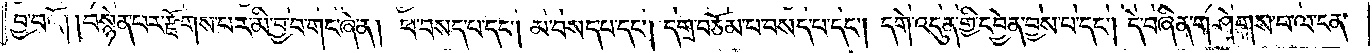བྱ་བའོ། །བསྙེན་པར་རྫོགས་པར་མི་བྱ་བ་གང་ཞེ་ན། ཕ་བསད་པ་དང༌། མ་བསད་པ་དང༌། དགྲ་བཅོམ་པ་བསད་པ་དང༌། དགེ་འདུན་གྱི་དབྱེན་བྱས་པ་དང༌། དེ་བཞིན་གཤེགས་པ་ལ་ངན་
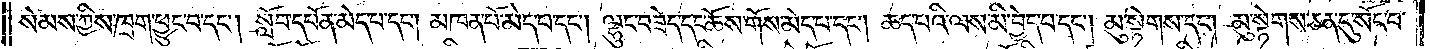སེམས་ཀྱིས་ཁྲག་ཕྱུང་བ་དང༌། སློབ་དཔོན་མེད་པ་དང༌། མཁན་པོ་མེད་པ་དང༌། ལྷུང་བཟེད་དང་ཆོས་གོས་མེད་པ་དང༌། ཆད་པའི་ལས་མི་བྱེད་པ་དང༌།   མུ་སྟེགས་དང༌། མུ་སྟེགས་ཅན་དུ་སོང་བ་
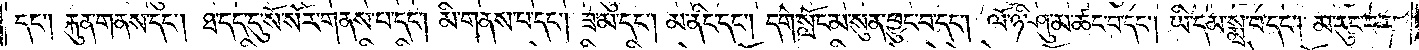དང༌། རྐུན་གནས་དང༌། ཐ་དད་དུ་སོ་སོར་གནས་པ་དང༌། མི་གནས་པ་དང༌། ཟ་མ་དང༌། མ་ནིང་དང༌། དགེ་སློང་མ་སུན་ཕྱུང་བ་དང༌། ལོ་ཉི་ཤུ་མ་ཚང་བ་དང༌། ཡི་དམ་སྨྲ་བ་དང༌། མ་རུང་བར་
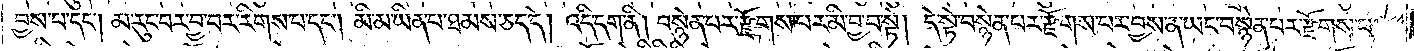བྱས་པ་དང༌། མ་རུང་བར་བྱ་བར་རིགས་པ་དང༌། མི་མ་ཡིན་པ་ཐམས་ཅད་དེ། འདི་དག་ནི། བསྙེན་པར་རྫོགས་པར་མི་བྱ་བ་སྟེ། དེ་སྟེ་བསྙེན་པར་རྫོགས་པར་བྱས་ན་ཡང་བསྙེན་པར་རྫོགས་པ་
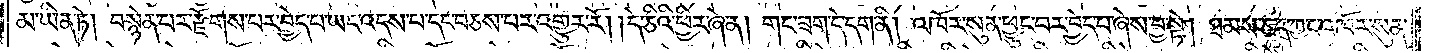མ་ཡིན་ཏེ། བསྙེན་པར་རྫོགས་པར་བྱེད་པ་ཡང་འདས་པ་དང་བཅས་པར་འགྱུར་རོ། །དེ་ཅིའི་ཕྱིར་ཞེ་ན། གང་ཟག་དེ་དག་ནི། འཁོར་སུན་ཕྱུང་བར་བྱེད་པ་ཞེས་བྱ་སྟེ། ཐམས་ཅད་ཀྱང་འཁོར་སུན་
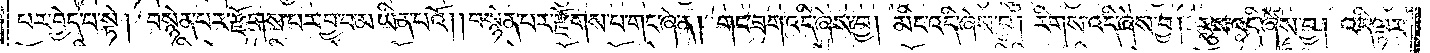པར་བྱེད་པ་སྟེ། བསྙེན་པར་རྫོགས་པར་བྱ་བ་མ་ཡིན་པའོ། །བསྙེན་པར་རྫོགས་པ་གང་ཞེ་ན། གང་ཟག་འདི་ཞེས་བྱ། མིང་འདི་ཞེས་བྱ། རིགས་འདི་ཞེས་བྱ། རུས་འདི་ཞེས་བྱ། འདི་ལྟར་
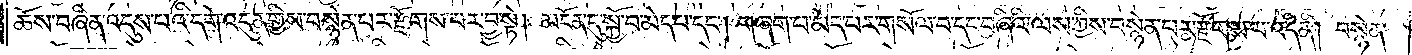ཆོས་བཞིན་འདུས་པའི་དགེ་འདུན་གྱིས་བསྙེན་པར་རྫོགས་པར་བྱ་སྟེ། མངོན་དུ་སྐྱོ་བ་མེད་པ་དང༌། གཞག་པ་མེད་པར་གསོལ་བ་དང་བཞིའི་ལས་ཀྱིས་བསྙེན་པར་རྫོགས་པ་འདི་ནི། བསྙེན་
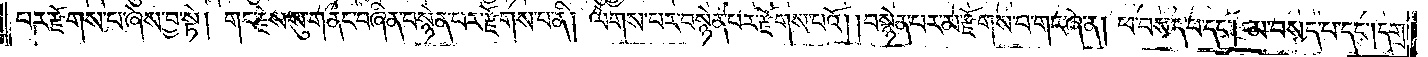པར་རྫོགས་པ་ཞེས་བྱ་སྟེ། གང་རྗེས་སུ་གནང་བཞིན་བསྙེན་པར་རྫོགས་པ་ནི། ལེགས་པར་བསྙེན་པར་རྫོགས་པའོ། །བསྙེན་པར་མ་རྫོགས་པ་གང་ཞེ་ན། ཕ་བསད་པ་དང༌། མ་བསད་པ་དང༌། དགྲ་
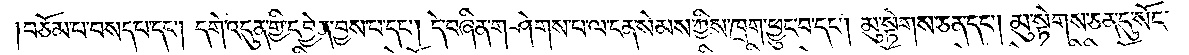བཅོམ་པ་བསད་པ་དང༌། དགེ་འདུན་གྱི་དབྱེན་བྱས་པ་དང༌། དེ་བཞིན་གཤེགས་པ་ལ་ངན་སེམས་ཀྱིས་ཁྲག་ཕྱུང་བ་དང༌། མུ་སྟེགས་ཅན་དང༌། མུ་སྟེགས་ཅན་དུ་སོང་
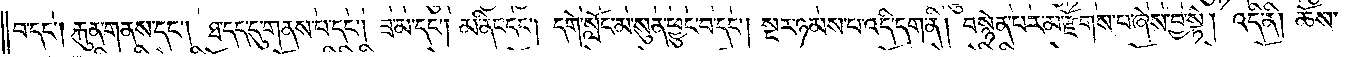བ་དང༌། རྐུན་གནས་དང༌། ཐ་དད་དུ་གནས་པ་དང༌། ཟ་མ་དང༌། མ་ནིང་དང༌། དགེ་སློང་མ་སུན་ཕྱུང་བ་དང༌། སྔར་ཉམས་པ་འདི་དག་ནི། བསྙེན་པར་མ་རྫོགས་པ་ཞེས་བྱ་སྟེ། འདི་ནི། ཆོས་
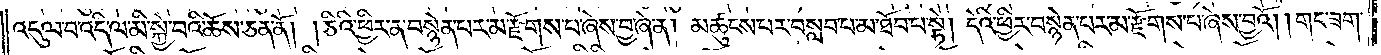འདུལ་བ་འདི་ལ་མི་སྐྱེ་བའི་ཆོས་ཅན་ནོ། །ཅིའི་ཕྱིར་ན་བསྙེན་པར་མ་རྫོགས་པ་ཞེས་བྱ་ཞེ་ན། མཚུངས་པར་བསླབ་པ་མ་ཐོབ་པ་སྟེ། དེའི་ཕྱིར་བསྙེན་པར་མ་རྫོགས་པ་ཞེས་བྱའོ། །གང་ཟག་
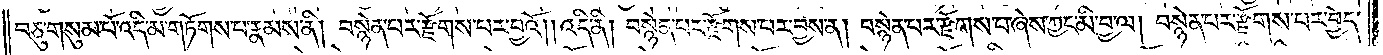བཅུ་གསུམ་པོ་འདི་མ་གཏོགས་པ་རྣམས་ནི། བསྙེན་པར་རྫོགས་པར་བྱའོ། །འདི་ནི། བསྙེན་པར་རྫོགས་པར་བྱས་ན། བསྙེན་པར་རྫོགས་པ་ཞེས་ཀྱང་མི་བྱ་ལ། བསྙེན་པར་རྫོགས་པར་བྱེད་
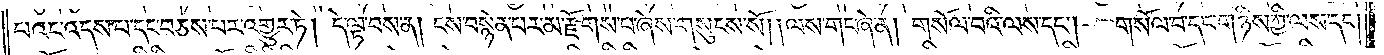པའང་འདས་པ་དང་བཅས་པར་འགྱུར་ཏེ། དེ་ལྟ་བས་ན། ངས་བསྙེན་པར་མ་རྫོགས་པ་ཞེས་གསུངས་སོ། །ལས་གང་ཞེ་ན། གསོལ་བའི་ལས་དང༌། གསོལ་བ་དང་གཉིས་ཀྱི་ལས་དང༌།
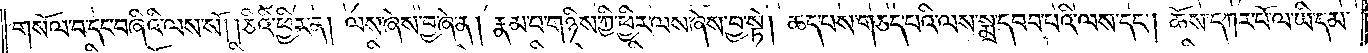གསོལ་བ་དང་བཞིའི་ལས་སོ། །ཅིའི་ཕྱིར་ན། ལས་ཞེས་བྱ་ཞེ་ན། རྣམ་པ་གཉིས་ཀྱི་ཕྱིར་ལས་ཞེས་བྱ་སྟེ། ཆད་པས་གཅད་པའི་ལས་སྨྲ་དབབ་པའི་ལས་དང༌། ཆོས་དཀར་པོ་ལ་ཡི་དམ་
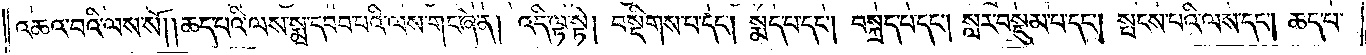འཆའ་བའི་ལས་སོ། །ཆད་པའི་ལས་སྨྲ་དབབ་པའི་ལས་གང་ཞེ་ན། འདི་ལྟ་སྟེ། བསྡིགས་པ་དང༌། སྨད་པ་དང༌། བསྐྲད་པ་དང༌། སླར་བསྡུམ་པ་དང༌། སྤངས་པའི་ལས་དང༌། ཆད་པ་
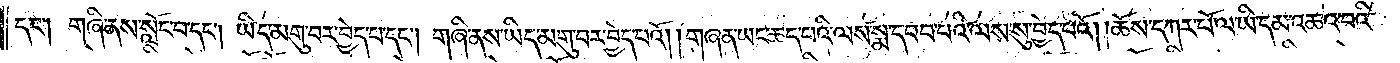དང༌། གཞི་ནས་སློང་བ་དང༌། ཡིད་མགུ་བར་བྱེད་པ་དང༌། གཞི་ནས་ཡིད་མགུ་བར་བྱེད་པའོ། །གཞན་ཡང་ཆད་པའི་ལས་སྨ་དབབ་པའི་ལས་སུ་བྱེད་པའོ། །ཆོས་དཀར་པོ་ལ་ཡི་དམ་འཆའ་བའི་
